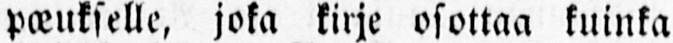pæukselle, joka kirje osottaa kuinka
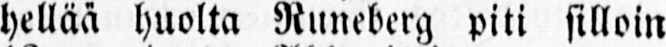hellää huolta Runeberg piti silloin
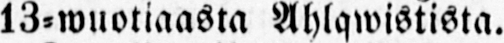13-wuotiaasta Ahlqwistista.
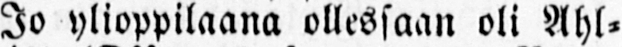Jo ylioppilaana ollessaan oli Ahl-
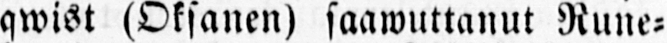qwist (Oksanen) saawuttanut Rune-
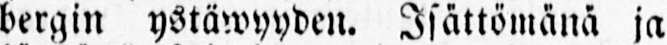bergin ystäwyyden. Isättömänä ja
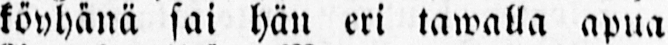köyhänä sai hän eri tawalla apua
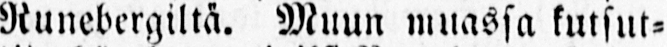Runebergiltä. Muun muassa kutsut-
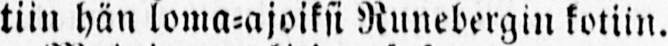tiin hän loma-ajoiksi Runebergin kotiin.
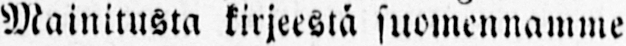Mainitusta kirjeestä suomennamme
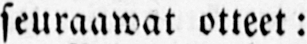seuraawat otteet:
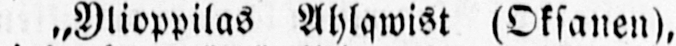˶Ylioppilas Ahlqwist (Oksanen),
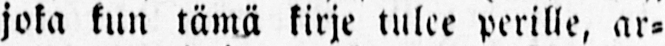joka kun tämä kirje tulee perille, ar-
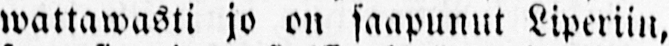wattawasti jo on saapunut Liperiin,
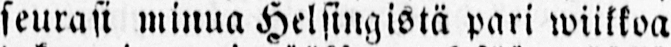seurasi minua Helsingistä pari wiikkoa
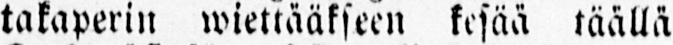takaperin wiettääkseen kesää täällä
